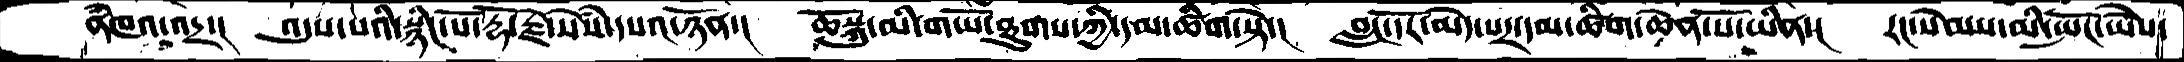ནཾཁའ་འདྲ་།   འདུས་པའི་སྙིང་པོ་རྡོ་རྗེ་སེཾས་དཔའ་ཉོན་།  ཆོསྐུ་མི་གཡོ་ཐུགས་ཀྱི་དམ་ཚིག་སྟེ་།  བླང་དོར་མེད་པར་དམ་ཚིག་ཆེན་པོ་ཡིན་།  རང་སེམས་མི་སྤོང་ཡཻས་
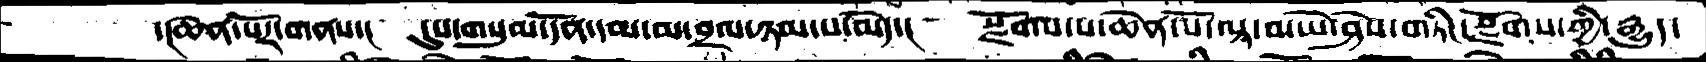་།ཆེན་པོར་གནས་།  དུས་གསུམ་དོན་དམ་མ་བྲལ་ཉམ་པ་མེད་།  སྫོགས་པ་ཆེན་པོ་ལྟ་བ་ཡེ་ཤེས་གཏིང་སྫོགས་གྱི་རྒྱུད་
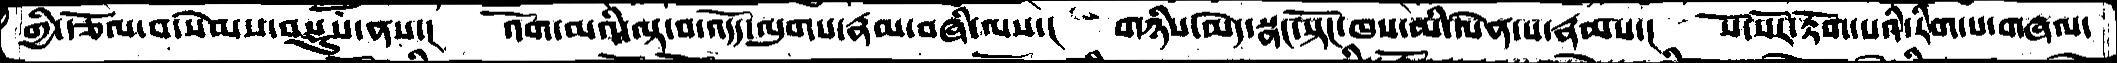གྱི་རྩོལ་བ་སེམས་བསྡུས་ནས་།  འོག་མའི་ལྟ་བ་འདོད་ལུགས་རྣམ་བཞི་ལས་།  གཉིས་མེད་སྣང་སྟོང་ཁས་མི་ལེན་པ་རྣམས་།  སོ་སོར་རྟོག་པའི་རིག་པ་གཞལ
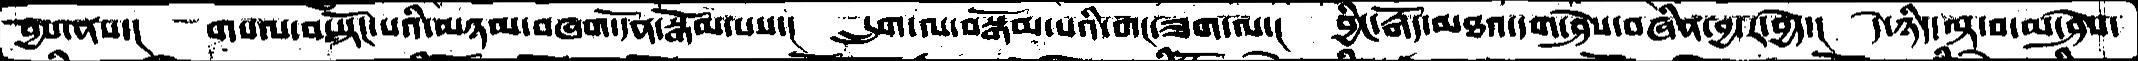བྱས་ནས་།  གསལ་བ་སྟོང་པའི་མཉམ་བཞག་དོན་སྒོམ་པས་།  དྲུག་ལ་བསྒོམ་པའི་གང་ཟག་ལ་།  བྱིང་རྒོད་མཐའ་དག་ཤེས་བཞིན་བྱ་ར་བྱེད་།  དེ་ཉིད་ལྟ་བ་མ་ཤེས་
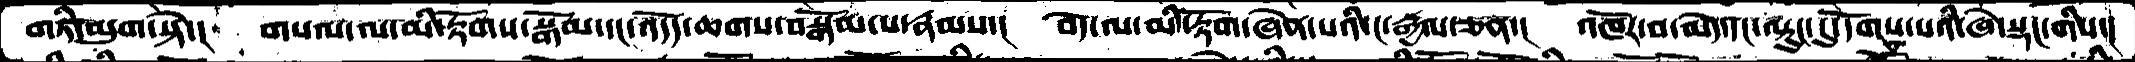གཏི་མུག་སྟེ་།  གསལ་ལ་མི་རྟོགས་སྒོམ་དང་འདོད་ཆགས་བསྒོམ་པ་རྣམས་།  བདེ་ལ་མི་རྟོག་ཞེས་པའི་ང་རྒྱལ་ཅན་།  འཁོར་བ་མེད་དང་ལྟུང་དུ་དོགས་པའི་ཞེ་སྡང་གིས་།
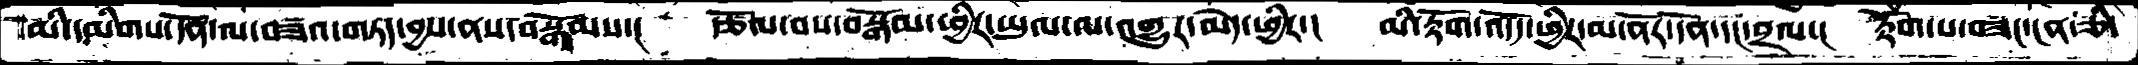མི་དམིགས་དོན་ལ་བཟའ་གཏད་བྱས་ནས་བསྒོམས་།  རྩོལ་བས་བསྒོམ་ཕྱིར་ཡུལ་ལ་འགྱུར་མེད་ཕྱིར་།  མི་རྟོག་འདོད་ཕྱིར་མ་ནོར་དོན་དང་བྲལ་།  རྟོག་པ་བཟང་ངན་ཅི་
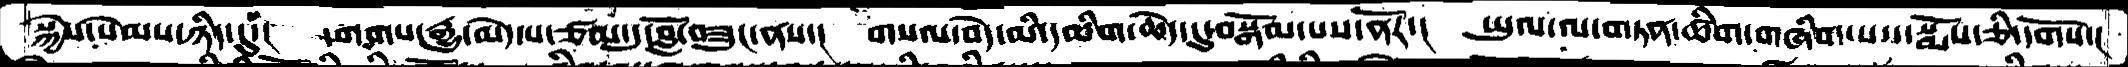སྐྱེས་སེམས་ཉིད་དུ་།  དགགས་རྒྱུ་མེད་པ་ཙམ་དུ་བློ་བཟུང་ནས་།  གསལ་བདེ་མི་དམིག་ཆེད་དུ་བསྒོམ་པས་ནོར་།  ཡུལ་ལ་གཏན་ཚིག་གཞིག་པས་སྨོས་ཅི་དགོས་།
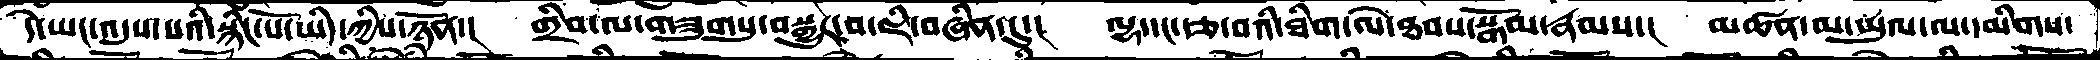དེ་ཡང་འདུས་པའི་སྙིང་པོ་ཡིད་ཀྱིས་ཉོན་།  གྲིབ་ལ་གཟུགསུ་བསྒྱུར་བ་ཇི་བཞིན་དུ་།  ལྷ་དང་རྩ་བའི་ཐིག་ལེ་ཐབས་སྒོམ་རྣམས་།  མཚན་མ་ཡུལ་ལ་དམིགས་
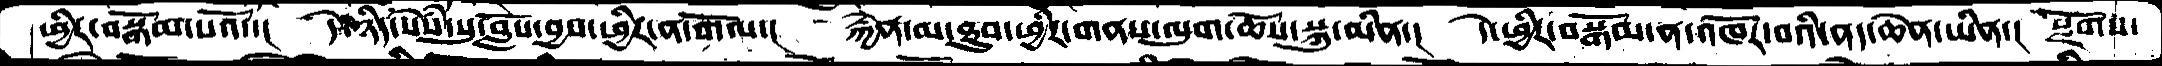ཕྱིར་བསྒོམ་པའོ་།  དེ་ཉིད་སེཾས་སུ་བློས་བྱས་ཕྱིར་ན་གོལ་།  རྐྱེན་མ་ཐུབ་ཕྱིར་གནས་ལུག་ཆོས་སྐུ་མིན་།  དེ་ཕྱིར་བསྒོམ་ན་འཁོར་བའི་ནད་ཆེན་ཡིན་།  སྫོགས་
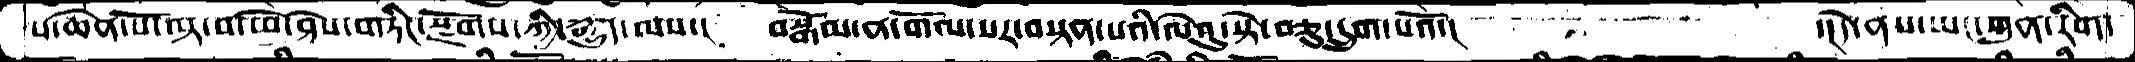པ་ཆེན་པོ་ལྟ་བ་ཡེ་ཤེས་གཏིང་སྫོགས་ཀྱི་རྒྱུད་ལས་།  བསྒོམ་ན་གོལ་སར་བསྟན་པའི་ལེའུ་སྟེ་བཅུ་དྲུག་པའོ་།        ་།དེ་ནས་ཡང་ཀུན་རིག་
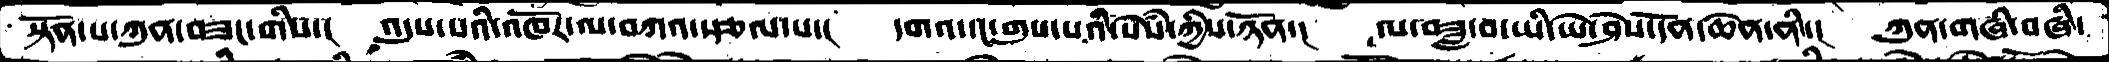སྟོན་པ་ཀུན་བཟང་གིས་།   འདུས་པའི་འཁོར་ལ་བཀའ་སྩལ་པ་།  དགའ་དང་གུས་པའི་སེཾས་ཀྱིས་ཉོན་།  ལ་བཟླ་བ་ཡི་ཡེ་ཤེས་དོན་ཆེན་ནི་།  ཀུན་གཞི་བཞི་
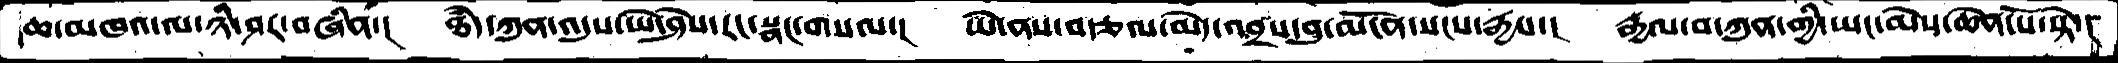ཆ་མཁའ་ལ་ཉི་ཤར་བཞིན་།  ཐཾད་ཀུན་འདུས་ཡེ་ཤེས་རང་སྣང་གསལ་།  ཡེ་ནས་བརྩལ་མེད་འབྲས་བུ་མངོན་སངས་རྒྱས་།  རྒྱལ་བ་ཀུན་གྱི་ཡང་མེས་ཆེན་པོ་སྟེ་།
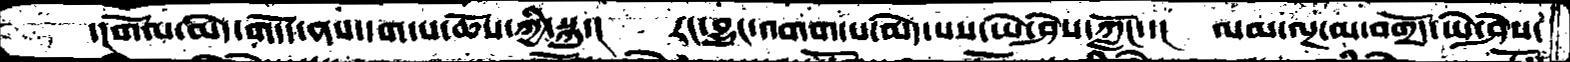་།གོལ་མེད་གདོད་ནས་དག་པ་ཆོས་ཀྱི་སྐུ་།  རང་བྱུང་འགག་པ་མེད་པས་ཡེ་ཤེས་ཀློང་་།  ལམ་ལྔ་མ་བགྲོད་ཡེ་ཤེས་
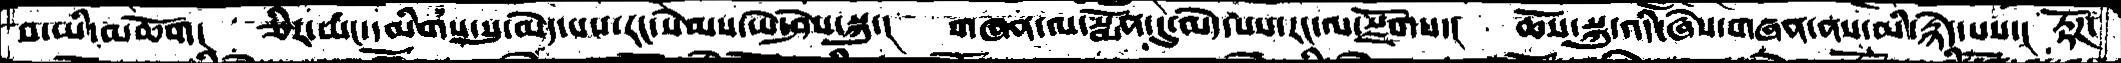པ་ཡི་མཆོག།  ཅིར་ཡང་དམིགས་སུ་མེད་པས་རང་སེམས་ཡེ་ཤེས་སྐུ་།  གཞན་ལ་སྨོན་དུ་མེད་པས་རང་ལ་སྫོགས་།  ཆོས་སྐུ་འདི་ཞེས་གཞན་ནས་མི་རྙེད་པས་།  རྟོཌ་
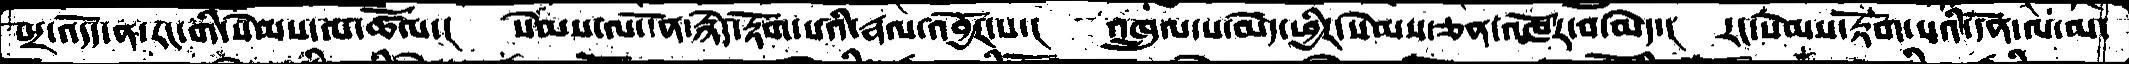པར་འདོད་ན་རང་གི་སེམས་ལ་ཚོལ་།  སེམས་ལ་དོན་རྙེད་རྟོག་པའི་རྣལ་འབྱོར་པ་།  འཁྲུལ་པ་མེད་ཕྱིར་སེམས་ཅན་འཁོར་བ་མེད་།  རང་སེམས་རྟོག་པའི་དོན་ལ་མ་
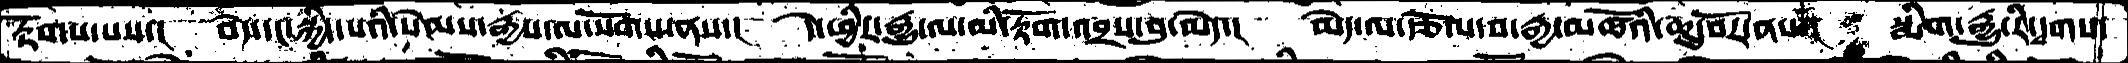རྟོགས་པས་།  བདེ་དང་སྐྱིད་པའི་སེམས་རྒྱས་ལ་སོགས་ནས་།  དེ་ཕྱིར་རྒྱུ་ལ་མི་རྟོག་འབྲས་བུ་མེད་།།  མེད་ལ་རྩོལ་བ་རྒྱ་མཚོའི་ཆུ་བོར་ནས་།  སྨིག་རྒྱུ་རི་དྭགས་
